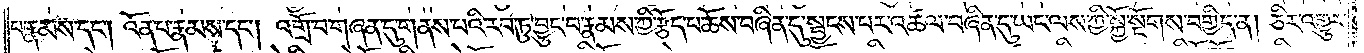པ་རྣམས་དང༌། འོན་པ་རྣམས་དང༌། འགྲོ་བ་གཞན་དུ་གནས་པའི་རབ་ཏུ་བྱུང་བ་རྣམས་ཀྱི་རྩོད་པ་ཆོས་བཞིན་དུ་སྦྱངས་པར་འཚལ་བཞིན་དུ་ཡང་ལས་ཀྱི་སྐྱོ་སྔོགས་བགྱིད་ན། ཅིར་འགྱུར་
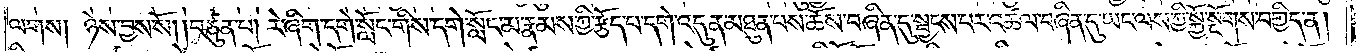ལགས། ཉེས་བྱས་སོ། །བཙུན་པ། རེ་ཞིག་དགེ་སློང་གིས་དགེ་སློང་མ་རྣམས་ཀྱི་རྩོད་པ་དགེ་འདུན་མཐུན་པས་ཆོས་བཞིན་དུ་སྦྱངས་པར་འཚལ་བཞིན་དུ་ཡང་ལས་ཀྱི་སྐྱོ་སྔོགས་བགྱིད་ན།
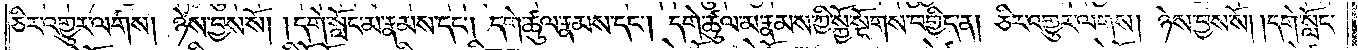ཅིར་འགྱུར་ལགས། ཉེས་བྱས་སོ། །དགེ་སློང་མ་རྣམས་དང༌། དགེ་ཚུལ་རྣམས་དང༌། དགེ་ཚུལ་མ་རྣམས་ཀྱི་སྐྱོ་སྔོགས་བགྱིད་ན། ཅིར་འགྱུར་ལགས། ཉེས་བྱས་སོ། །དགེ་སློང་
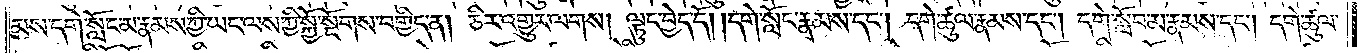མས་དགེ་སློང་མ་རྣམས་ཀྱི་ཡང་ལས་ཀྱི་སྐྱོ་སྔོགས་བགྱིད་ན། ཅིར་འགྱུར་ལགས། ལྟུང་བྱེད་དོ། །དགེ་སློང་རྣམས་དང༌། དགེ་ཚུལ་རྣམས་དང༌། དགེ་སློབ་མ་རྣམས་དང༌། དགེ་ཚུལ་
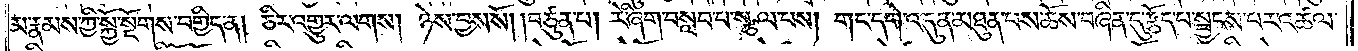མ་རྣམས་ཀྱི་སྐྱོ་སྔོགས་བགྱིད་ན། ཅིར་འགྱུར་ལགས། ཉེས་བྱས་སོ། །བཙུན་པ། རེ་ཞིག་བསླབ་པ་སྩལ་པས། གང་དགེ་འདུན་མཐུན་པས་ཆོས་བཞིན་དུ་རྩོད་པ་སྦྱངས་པར་འཚལ་
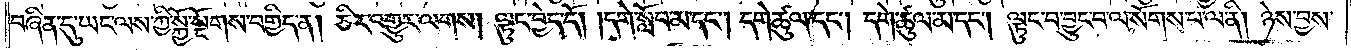བཞིན་དུ་ཡང་ལས་ཀྱི་སྐྱོ་སྔོགས་བགྱིད་ན། ཅིར་འགྱུར་ལགས། ལྟུང་བྱེད་དོ། །དགེ་སློབ་མ་དང༌། དགེ་ཚུལ་དང༌། དགེ་ཚུལ་མ་དང༌། ལྟུང་བ་བྱུང་བ་ལ་སོགས་པ་ལ་ནི། ཉེས་བྱས་
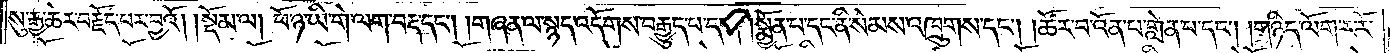སུ་རྒྱ་ཆེར་བརྗོད་པར་བྱའོ།    །སྡོམ་ལ། ཕོ་ཉ་ཡི་གེ་ལག་བརྡ་དང༌། །གཞན་ལ་སྙད་འདོགས་བརྒྱུད་པ་དང༌། །སྨྱོན་པ་དང་ནི་སེམས་འཁྲུགས་དང༌། །ཚོར་བ་འོན་པ་གླེན་པ་དང༌། །གཉིད་ལོག་ར་རོ་
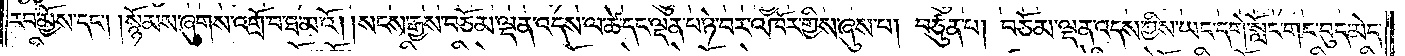རབ་མྱོས་དང༌། །སྙོམས་ཞུགས་འགྲོ་བ་ཐ་མའོ། །སངས་རྒྱས་བཅོམ་ལྡན་འདས་ལ་ཚེ་དང་ལྡན་པ་ཉེ་བར་འཁོར་གྱིས་ཞུས་པ། བཙུན་པ། བཅོམ་ལྡན་འདས་ཀྱིས་ཡང་དགེ་སློང་གང་བུད་མེད་
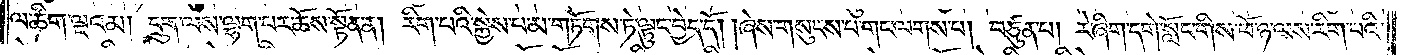ལ་ཚིག་ལྔའམ། དྲུག་ལས་ལྷག་པར་ཆོས་སྟོན་ན། རིག་པའི་སྐྱེས་པ་མ་གཏོགས་ཏེ་ལྟུང་བྱེད་དོ། །ཞེས་གསུངས་པ་གང་ལགས་པ། བཙུན་པ། རེ་ཞིག་དགེ་སློང་གིས་ཕོ་ཉ་ལས་རིག་པའི་
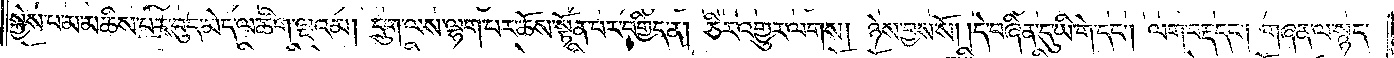སྐྱེས་པ་མ་མཆིས་པར་བུད་མེད་ལ་ཚིག་ལྔའམ། དྲུག་ལས་ལྷག་པར་ཆོས་སྟོན་པར་བགྱིད་ན། ཅིར་འགྱུར་ལགས། ཉེས་བྱས་སོ། །དེ་བཞིན་དུ་ཡི་གེ་དང༌། ལག་བརྡ་དང༌། གཞན་ལ་སྙད་
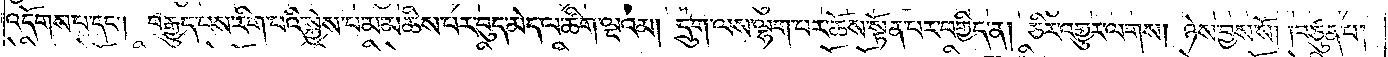འདོགས་པ་དང༌། བརྒྱུད་པས་རིག་པའི་སྐྱེས་པ་མ་མཆིས་པར་བུད་མེད་ལ་ཚིག་ལྔའམ། དྲུག་ལས་ལྷག་པར་ཆོས་སྟོན་པར་བགྱིད་ན། ཅིར་འགྱུར་ལགས། ཉེས་བྱས་སོ། །བཙུན་པ།
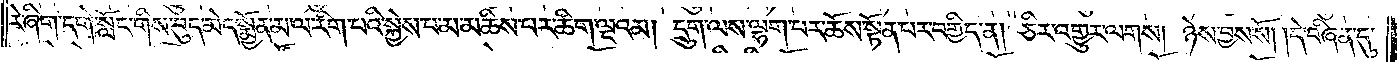རེ་ཞིག་དགེ་སློང་གིས་བུད་མེད་སྨྱོན་མ་ལ་རིག་པའི་སྐྱེས་པ་མ་མཆིས་པར་ཚིག་ལྔའམ། དྲུག་ལས་ལྷག་པར་ཆོས་སྟོན་པར་བགྱིད་ན། ཅིར་འགྱུར་ལགས། ཉེས་བྱས་སོ། །དེ་བཞིན་དུ་
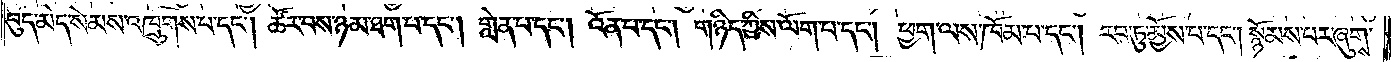བུད་མེད་སེམས་འཁྲུགས་པ་དང༌། ཚོར་བས་ཉམ་ཐག་པ་དང༌། གླེན་པ་དང༌། འོན་པ་དང༌། གཉིད་ཀྱིས་ལོག་པ་དང༌། ཕྱག་ལས་ཁོམ་པ་དང༌། རབ་ཏུ་མྱོས་པ་དང༌། སྙོམས་པར་ཞུགས་
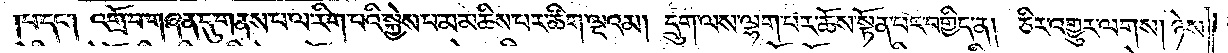།པ་དང༌། འགྲོ་བ་གཞན་དུ་གནས་པ་ལ་རིག་པའི་སྐྱེས་པ་མ་མཆིས་པར་ཚིག་ལྔའམ། དྲུག་ལས་ལྷག་པར་ཆོས་སྟོན་པར་བགྱིད་ན། ཅིར་འགྱུར་ལགས། ཉེས་
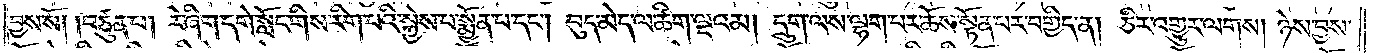བྱས་སོ། །བཙུན་པ། རེ་ཞིག་དགེ་སློང་གིས་རིག་པའི་སྐྱེས་པ་སྨྱོན་པ་དང༌། བུད་མེད་ལ་ཚིག་ལྔའམ། དྲུག་ལས་ལྷག་པར་ཆོས་སྟོན་པར་བགྱིད་ན། ཅིར་འགྱུར་ལགས། ཉེས་བྱས་
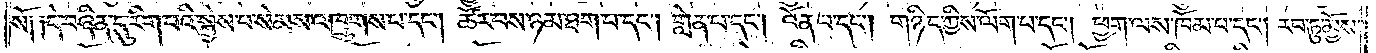སོ༑ ༑དེ་བཞིན་དུ་རིག་པའི་སྐྱེས་པ་སེམས་འཁྲུགས་པ་དང༌། ཚོར་བས་ཉམ་ཐག་པ་དང༌། གླེན་པ་དང༌། འོན་པ་དང༌། གཉིད་ཀྱིས་ལོག་པ་དང༌། ཕྱག་ལས་ཁོམ་པ་དང༌། རབ་ཏུ་མྱོས་
